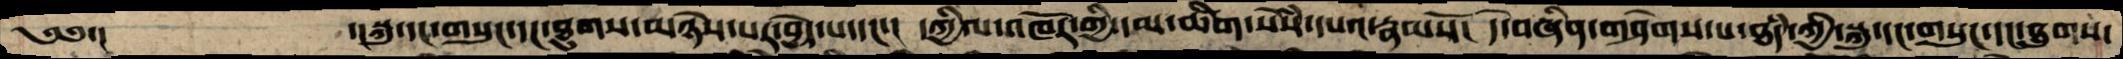༄༅་།           ་།སྐུ་དང་གསུང་དང་ཐུགས་མཉེས་པར་བྱེད་པ་དང་།  དཀྱིལ་འཁོར་གྱི་དམ་ཚིག་སེསཾ་དཔའ་རྣམསོ།  དེ་བཞིན་གཤེགས་པ་ཐཾད་ཀྱི་སྐུ་དང་གསུང་དང་ཐུགས་
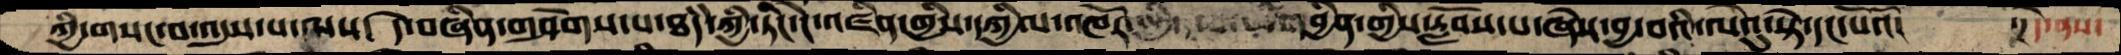ཀྱི་གསང་བ་འདུས་པ་ལས།  དེ་བཞིན་གཤེགས་པ་ཐཾད་ཀྱི་ཏིང་ངེ་འཛིན་གྱིས་དཀྱིལ་འཁོར་     བྱིན་གྱིས་རློབས་པ་ཞེས་བྱ་བའི་ལེའུ་སྟེ་དང་པོའོ།   ་།དེ་ནས་
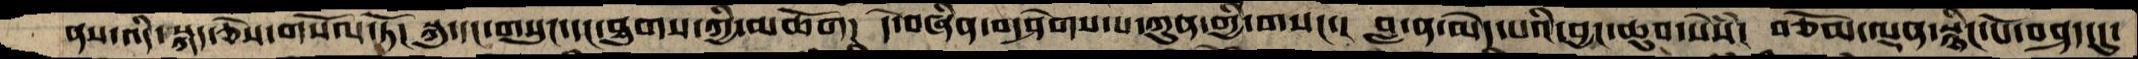ནས་འདི་སྐད་ཅེས་གསོལ་ཏོ།  སྐུ་དང་གསུང་དང་ཐུགས་ཀྱི་མཆོག།  དེ་བཞིན་གཤེགས་པ་ཀུན་གྱི་གསང་།  བླ་ན་མེད་པའི་བྱང་ཆུབ་སེསཾ།  བཅོམ་ལྡན་སྙིང་པོ་བཤད་དུ་
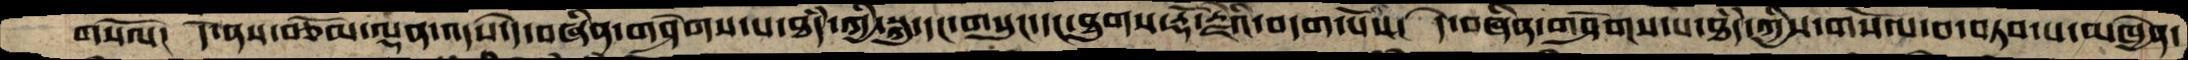གསོལ།  དེ་ནས་བཅོམ་ལྡན་འདས་དེ་བཞིན་གཤེགས་པ་ཐཾད་ཀྱི་སྐུ་དང་གསུང་དང་ཐུགས་རྡོ་རྗེའི་བདག་པོས།  དེ་བཞིན་གཤེགས་པ་ཐཾད་ཀྱིས་གསོལ་བ་བཏབ་པ་མཁྱེན་
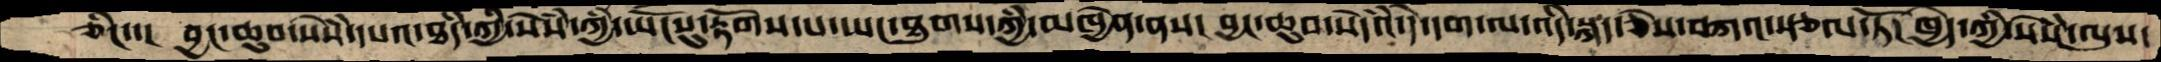ཅིང་་།  བྱང་ཆུབ་སེསཾ་དཔའ་ཐཾད་ཀྱི་སེསཾ་ཀྱི་ཡོངསུ་རྟོགས་པ་ཡང་ཐུགས་ཀྱི་མཁྱེན་ནས། བྱང་ཆུབ་སེདཾའ་དེ་དག་ལ་འདི་སྐད་ཅེས་བཀའ་སྩལ་ཏོ། ཁྱེད་ཀྱི་སེསཾ་ལུས་
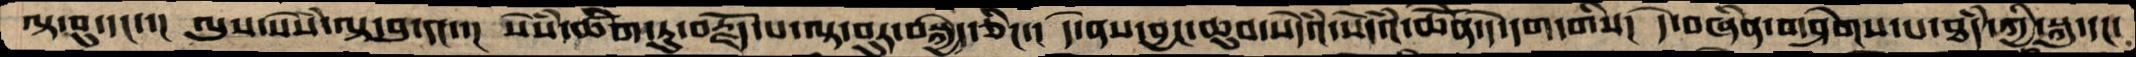ལྟ་བུ་དང་་།  ལུས་སེསཾ་ལྟ་བུ་དང་་།  སེསཾ་ཚིག་ཏུ་བརྗོད་པ་ལྟ་བུར་བསྐྱེད་ཅིང་།  དེ་ནས་བྱང་ཆུབ་སེདཾའ་སེདཾའ་ཆེོན་དེ་དག་གིས།  དེ་བཞིན་གཤེགས་པ་ཐཾད་ཀྱི་སྐུ་དང་
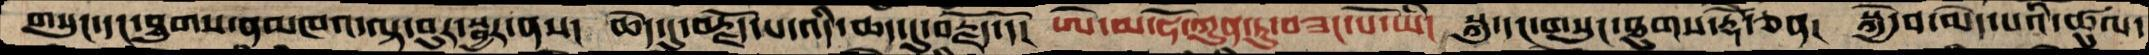གསུང་དང་ཐུགས་ནམཁའ་ལྟ་བུར་སྦྱར་ནས།  ཆེད་དུ་བརྗོད་པ་འདི་ཆད་དུ་བརྗོད་དོ།  ཨེ་མ་ཧོ་ཀུན་ཏུ་བཟང་པོ་ཡི།  སྐུ་དང་གསུང་ཐུགས་རྡོེ་ཅན།  སྐྱེ་བ་མེད་པའི་ཚུལ་
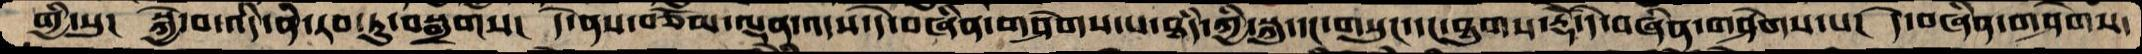གྱི་སུ།  སྐྱེ་བ་འདི་ནི་རབ་ཏུ་བསྒྲགས།  དེ་ནས་བཅོམ་ལྡན་འདས་དེ་བཞིན་གཤེགས་པ་ཐཾད་ཀྱི་སྐུ་དང་གསུང་དང་ཐུགས་རྡོེ་དེ་བཞིན་གཤེགས་པ།  དེ་བཞིན་གཤེགས་
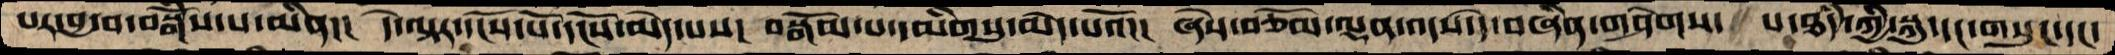པར་བྱ་བ་བསྒོཾས་པ་མིན།།  དེ་ལྟར་དངོས་པོ་དངོས་མེད་པས།  བསྒོམ་པ་དམིགསུ་མེད་པའོ།། ཞེས་བཅོོམ་ལྡན་འདས་དེ་བཞིན་གཤེགས་  པ་ཐཾད་ཀྱི་སྐུ་དང་གསུང་དང་
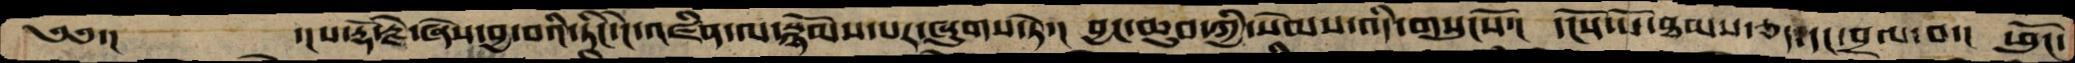༄༅་།        ་།པ་རྡོ་རྗེ་ཞེས་བྱ་བའི་ཏིང་ངེ་འཛིན་ལ་སྙོམས་པར་ཞུགས་ཏེ་།  བྱང་ཆུབ་ཀྱི་སེམས་འདི་གསུངསོ་།  དངོས་པོ་ཐམས་ཅད་དང་བྲལ་བ་།  ཕུངོ་
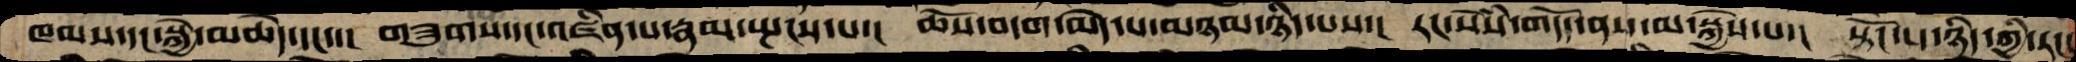ཁམས་དང་སྐྱེ་མཆེད་དང་་། གཟུགས་དང་འཛིན་པ་རྣམ་སྤངས་པ་།  ཆོས་བདག་མེད་པ་མཉམ་ཉིད་པས་།  རང་སེསཾ་གདོད་ནས་མ་སྐྱེས་པ་།  སྟོང་པ་ཉིད་ཀྱི་རང་
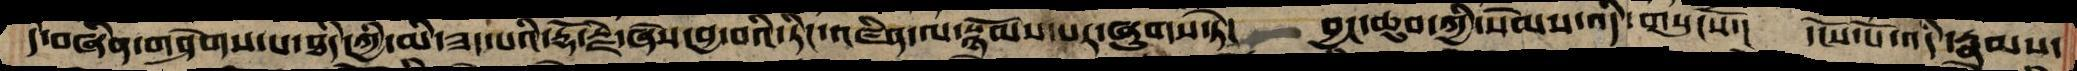དེ་བཞིན་གཤེགས་པ་ཐཾད་ཀྱི་མི་ཟད་པའི་རྡོ་རྗེ་ཞེས་བྱ་བའི་ཏིང་འཛིན་ལ་སྙོམས་པར་ཞུགས་ཏེ་།  བྱང་ཆུབ་ཀྱི་སེམས་འདི་གསུངསོ་།  དངོས་པོ་འདི་རྣམས་
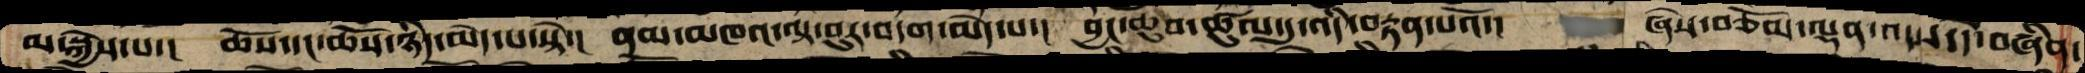མ་སྐྱེས་པ་།  ཆོས་དང་ཆོས་ཉིད་མེད་པ་སྟེ་།  ནམ་མཁའ་ལྟ་བུར་བདག་མེད་པ་།  བྱང་ཆུབ་ཚུལ་དུ་འདི་བརྟན་པའོ་།  ཞེས་བཅོམ་ལྡན་འདས་དེ་བཞིན་
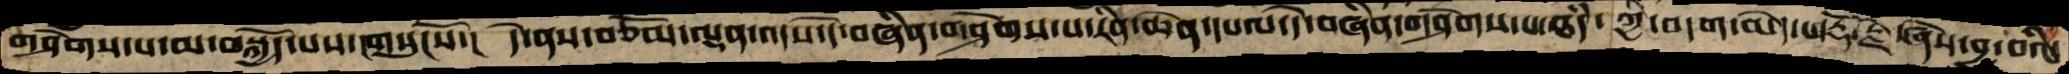གཤེགས་པ་མ་བསྐྱོད་པས་གསུངསོ་།  དེ་ནས་བཅོམ་ལྡན་འདས་དེ་བཞིན་གཤེགས་པ་རིན་ཆེན་དཔལ་དེ་བཞིན་གཤེགས་པ་ཐཾད་ཀྱི་བདག་མེད་པ་རྡོ་རྗེ་ཞེས་བྱ་བའི་
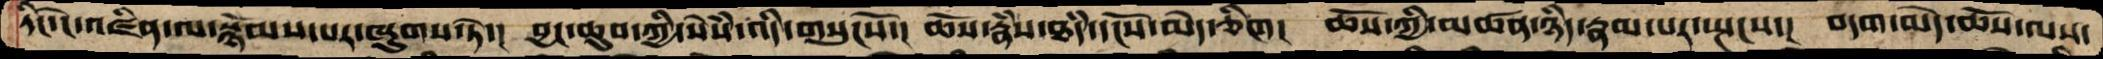ཏིང་ངེ་འཛིན་ལ་སྙོམས་པར་ཞུགས་ཏེ་།  བྱང་ཆུབ་ཀྱི་སེཾས་འདི་གསུངསོ་།  ཆོས་རྣཾས་ཐཾད་དངོས་མེད་ཅིག།  ཆོས་ཀྱི་མཚན་ཉིད་རྣམ་པར་སྤངས་།  བདག་མེད་ཆོས་ལས་
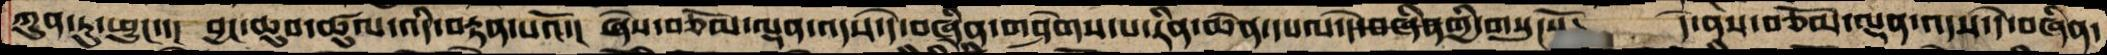ཀུན་ཏུ་ཕྱུང་་།  བྱང་ཆུབ་ཚུལ་འདི་བརྟན་པའོ་།  ཞེས་བཅོམ་ལྡན་འདས་དེ་བཞིན་གཤེགས་པ་རིན་ཆེན་དཔལ་དེ་བཞིན་གྱི་གསུངསོ་།  དེ་ནས་བཅོམ་ལྡན་འདས་དེ་བཞིན་
